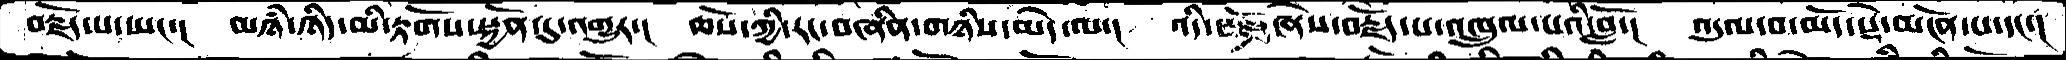བརྗོད་པ་ཡང་།་  མཉཾ་ཉིད་མི་རྟོགས་སྐྱོན་དུ་འགྱུར་།  ཆོས་ཀྱི་རང་བཞིན་གཉིས་མེད་ལ་།  འདི་ཞེས་བརྗོད་པ་འཁྲུལ་པའི་བློ་།  འདུལ་བ་མདོ་སྡེ་མངོན་པ་དང་།
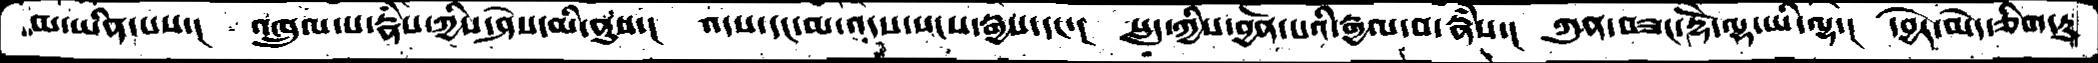མ་ཡིན་པས་།  འཁྲུལ་པ་རྣཾས་ཀྱིས་ཤེས་མི་ནུས་།  འདས་དང་མ་འདས་སངས་རྒྱས་དང་།  སླད་ཀྱིས་བྱོན་པའི་རྒྱལ་བ་རྣཾས།  ཀུན་བཟང་རྡོེ་ལྷ་ཡི་ལྷ་།  དབྱེར་མེད་ཅིག་ཏུ་
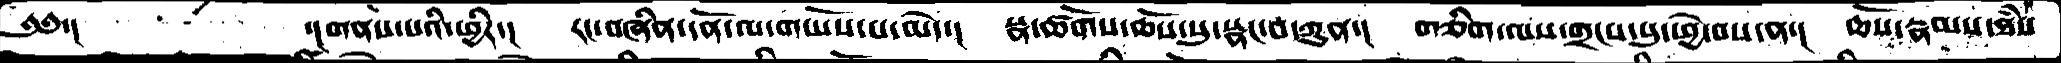༄༅་།       ་།གནས་པའི་ཕྱིར་།  རང་བཞིན་དོན་ལ་གཡོས་པ་མེད་།  སྣ་ཚོགས་ཆོས་སུ་སྣང་བ་ཀུན་།  གཅིག་ལས་གྲངས་སུ་ཕྱེ་བས་ན་།  ཆོས་རྣམས་ཐཾས
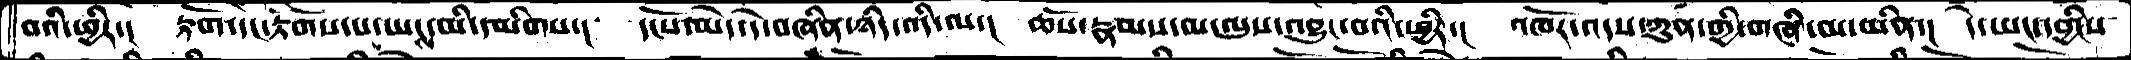བའི་ཕྱིར་།  རྟོག་དང་རྟོགས་པ་ཡང་མི་དམིགས་།  དངོས་མེད་དེ་བཞིན་ཉིད་འདི་ལ་།  ཆོས་རྣམས་མ་ལུས་འབྱུང་བའི་ཕྱིར་།  འཁོར་འདས་ཀུན་གྱི་གཞི་མ་ཡིན་།  དེ་ཡང་དབྱིངས་
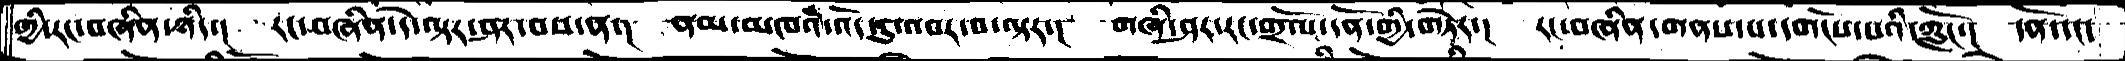གྱི་རང་བཞིན་ཉིད་།  རང་བཞིན་དེ་ལྟར་ཤར་བས་ན་།  ནམ་མཁའི་འོད་ཏུ་འབར་བ་ལྟར་།  གཞི་ཤར་རང་གྲོལ་དོན་གྱི་གཏེར་།  རང་བཞིན་གནས་པ་དགོངས་པའི་ཀློང་།  དོན་དང་
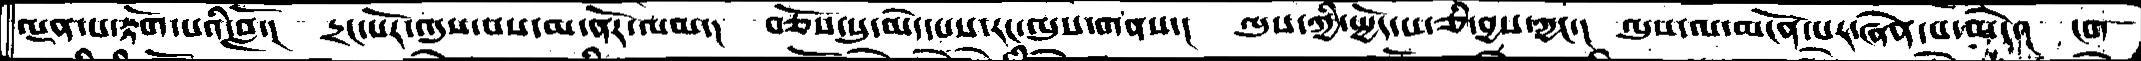ལྡན་པ་རྟོག་པའི་བློ་།  དྲང་པོར་འདུས་པས་མ་ནོར་ལམ་།  བཅོས་སུ་མེད་པས་རང་ལུས་གནས་།  ལུས་ཀྱི་སྤྱོད་པ་ཅི་བྱས་ཀྱང་།  ལུས་ལ་མངོན་པར་ཞེན་པ་མེད་།  ངག
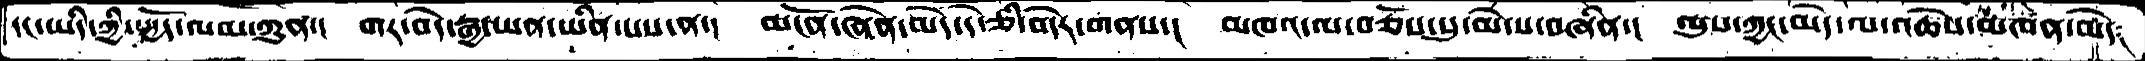དང་ཡིད་ཀྱི་སྤྱོད་ལམ་ཀུན་།  གར་བདེ་རྒྱ་ཡན་ཡིན་པས་ན་།  མངོན་ཞེན་མེད་དེ་ཅི་བདེར་གནས་།  མཁའ་ལ་བཅོས་སུ་མེ་ས་བཞིན་།  ལུས་ཀྱང་མེད་ལ་འཆེས་མཁན་མེད
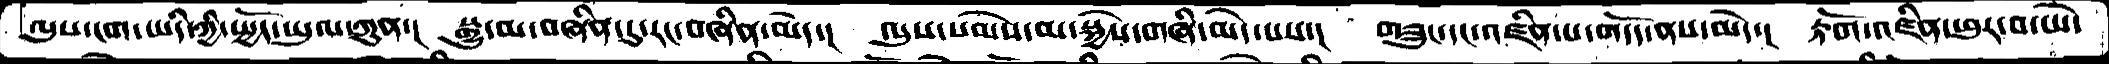ལུས་ངག་ཡིད་ཀྱི་སྤྱོད་ཡུལ་ཀུན་།  སྒྱུ་མ་བཞིན་དུ་རང་བཞིན་མེད་།  ལུས་སེམས་མ་སྐྱེས་གཞི་མེད་པས་།  གཟུང་དང་འཛིན་པ་གདོད་ནས་མེད་།  རྟོག་འཛིན་ཕུར་བ་ཡེ་
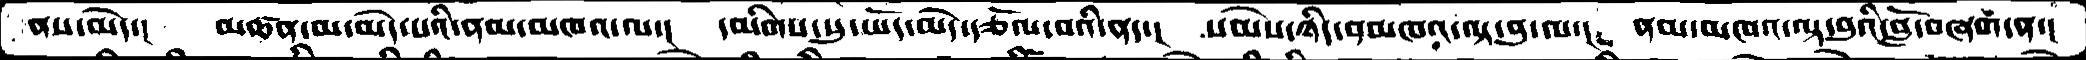ནས་མེད་།  མཚན་མ་མེད་པའི་ནམ་མཁའ་ལ་།  དམིགས་སུ་ཡོད་མེད་རྩོལ་བའི་ནད་།  སེམས་ཉིད་ནམཁའ་ལྟ་བུ་ལ་།  ནམ་མཁའ་ལྟ་བུའི་བློ་བཞག་ན་།
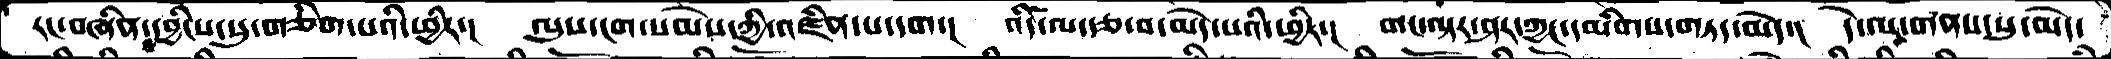རང་བཞིན་དབྱིངས་སུ་གཅིག་པའི་ཕྱིར་།  ལུས་ངག་སེམས་ཀྱི་འཛིན་པ་དག་།  འདི་ལ་རྩ་བ་མེད་པའི་ཕྱིར་།  གང་ལྟར་ཤར་ཀྱང་དམིགས་གཏད་མེད་།   དེ་ལ་གནས་སུ་མེད་
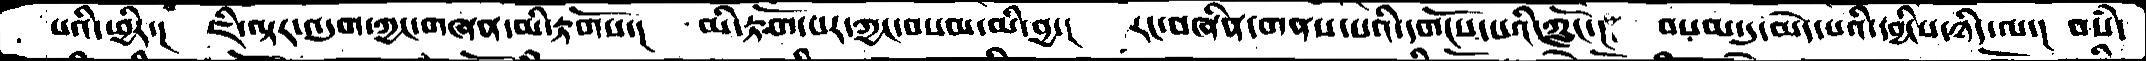པའི་ཕྱིར་།  ཇི་ལྟར་འདུག་ཀྱང་གཞན་མི་རྟོགས་།  མི་རྟོག་པར་ཀྱང་བསམ་མི་བྱ་།  རང་བཞིན་གནས་པའི་དགོངས་པའི་ཀློང་།  བསམ་དུ་མེད་པའི་དབྱིངས་ཉིད་ལ་།  བསཾ་
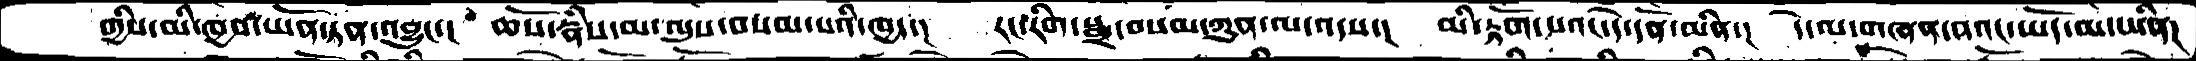གྱིས་མི་ཁྱབ་ཡོན་ཏན་འབྱུང་།  ཆོས་རྣཾས་མ་ལུས་བསམ་པའི་ཁྱད་།  རང་རིག་སྨྲ་བསམ་ཀུན་ལ་འདས་།  མི་རྟོག་པའང་དེ་དོན་མིན་།  དེ་ལ་གཞན་ནའང་ཡོད་མ་ཡིན།
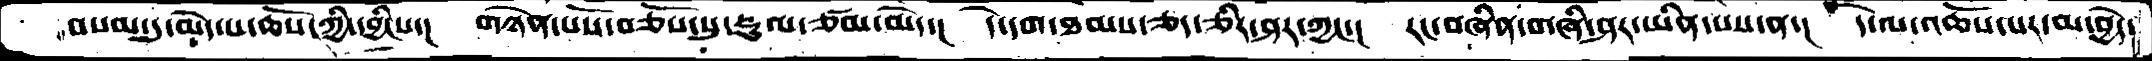བསམ་དུ་མེད་པ་ཆོས་ཀྱི་དབྱིངས་།  གཉེན་པོས་བཅོས་སུ་རྡུལ་ཙམ་མེད་།  དེ་དག་ཐམས་ཅད་ཅིར་ཤར་ཀྱང་།  རང་བཞིན་གཞི་ཤར་ཡིན་པས་ན་།  དེ་ལ་འཆོས་པར་མ་བྱེད་
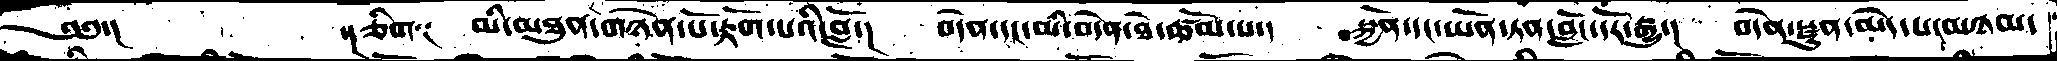༄༅་།          ་།ཅིག༑   མི་མཐུན་གཉེན་པོ་རྟོག་པའི་བློ་།  བདེན་དང་མི་བདེན་ཐེ་ཚོམ་པ་།  སྐྱོན་དང་ཡོན་ཏན་བླངོ་དོར་རྒྱུ་།  བདེན་སྫུན་མེད་པ་མཉམ་
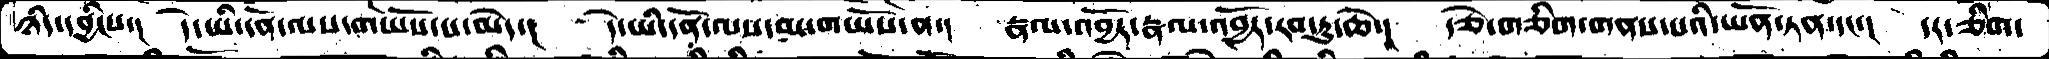ཉིད་དབྱིངས་།  དེ་ཡི་དོན་ལས་གཡོས་པ་མེད་།  དེ་ཡི་དོན་ལས་མ་གཡོས་ན་།  རྣལ་འབྱོར་རྣལ་འབྱོར་རབ་ཏུ་ཆེ་།  རྩེ་གཅིག་གནས་པའི་ཏོན་ཏན་དང་།  དར་ཅིག་
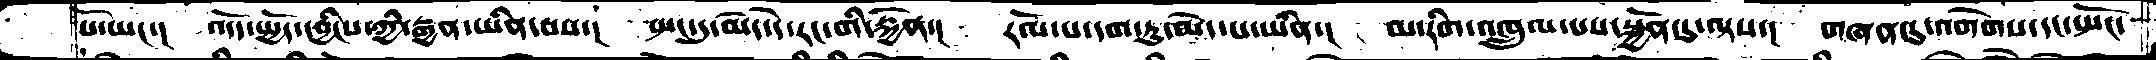པོ་ཡང་།  འདོད་སྤྱོད་དབྱིངས་ཀྱི་རྒྱན་ཡིན་བས་།  སྤང་དུ་མེད་དེ་རང་གི་སྐྱོན་།  རོལ་པ་དག་ཏུ་མེད་པ་ཡིན་།  མ་རིག་འཁྲུལ་པས་སྐྱོན་དུ་ལྟས་།  གཞན་དུ་འགེགས་དང་སྤོང་
